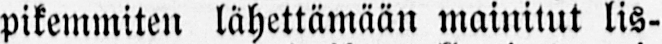pikemmiten lähettämään mainitut lis-
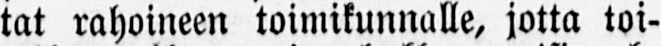tat rahoineen toimikunnalle, jotta toi-
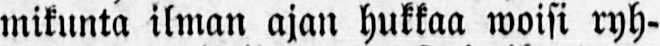mikunta ilman ajan hukkaa woisi ryh-
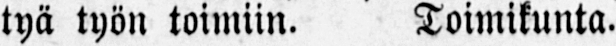tyä työn toimiin. Toimikunta.
